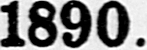1890.
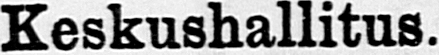Keskushallitus.
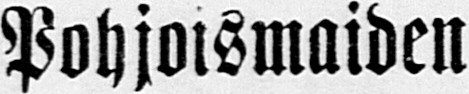Pohjoismaiden
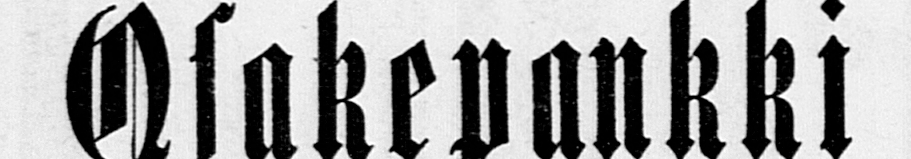Osakepankki
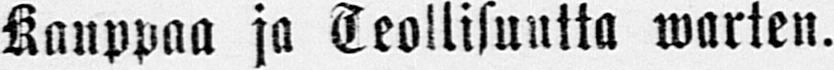Kauppaa ja Teollisuutta warten.
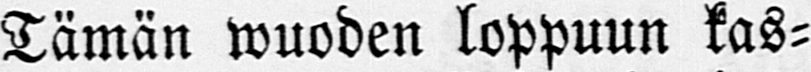Tämän wuoden loppuun kas-
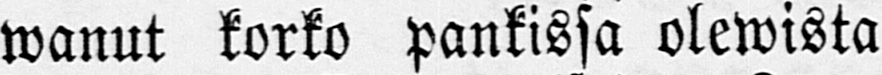wanut korko pankissa olewista
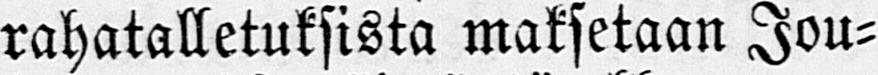rahatalletuksista maksetaan Jou-
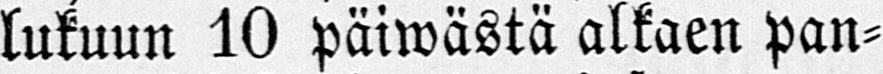lukuun 10 päiwästä alkaen pan-
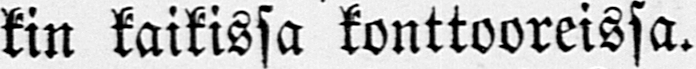kin kaikissa konttooreissa.
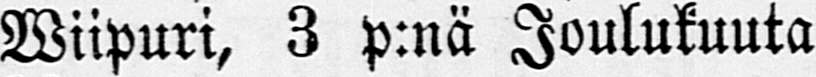Wiipuri, 3 p:nä Joulukuuta
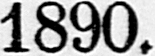1890.
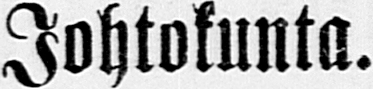Johtokunta.
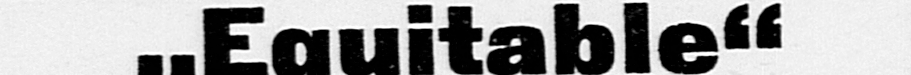„Equitable"
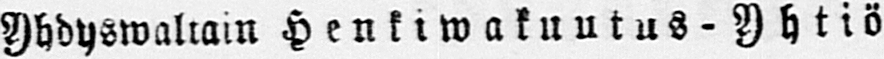Yhdyswaltain Henkiwakuutus-Yhtiö
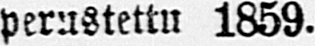perustettu 1859.
